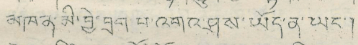མཁན་མི་བྱེ་བྲག་པ་འགའ་ཤས་ཡོད་ན་ཡང་།
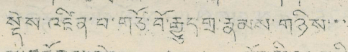སྡེས་འཛིན་བ་གཙོ་བོ་རྒྱུད་གྲ་རྣམས་གཉིས་་་
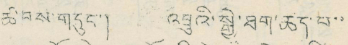ཚབས་གདུང་། འབྲུའི་སྒྱེ་ཐག་ཆད་པ་་
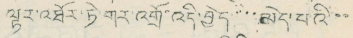ལྟར་འཐོར་ཏེ་གར་འགྲོ་འདི་བྱེད་་་་མེད་པའི་་་
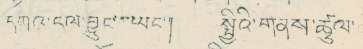དཀའ་ངལ་བྱུང་་ཡང་། སྤྱིའི་གནས་ཚུལ་
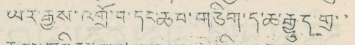ཡར་རྒྱས་འགྲོ་བ་དང་ཆབ་གཅིག་ད་ཆ་རྒྱུད་གྲ་་
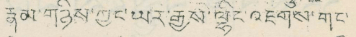རྣམ་གཉིས་ཀྱང་ཡར་རྒྱས་ལྷིང་འཇགས་གང་
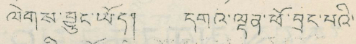ལེགས་བྱུང་ཡོད། དགའ་ལྡན་ཕོ་བྲང་པའི་
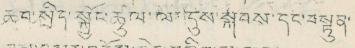ཆབ་སྲིད་སྐྱོང་ཚུལ་ལ་དུས་སྐབས་དང་བསྟུན་
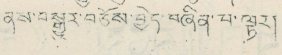ནས་བསྒྱུར་བཅོས་བྱེད་བཞིན་པ་ལྟར།
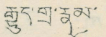རྒྱུད་གྲ་རྣམ་
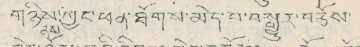གཉིས་ནས་ཀྱང་ཕན་ཐོགས་མེད་པ་བསྒྱུར་བཅོས་
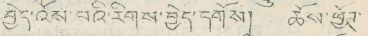བྱེད་འོས་བའི་རིགས་བྱེད་དགོས། ཆོས་ཕྱོཊ་
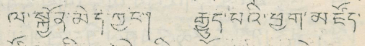ལ་སྐྱོན་མེད་ཀྱང་། རྒྱུད་པའི་ཕྱག་མཛོད་
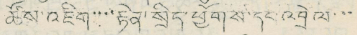ཆོས་འཇིག་་་རྟེན་སྲིད་ཕྱོགས་དང་འབྲེལ་་་
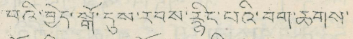བའི་བྱེད་སྒོ་དུས་རབས་རྙིང་པའི་བག་ཆགས་
